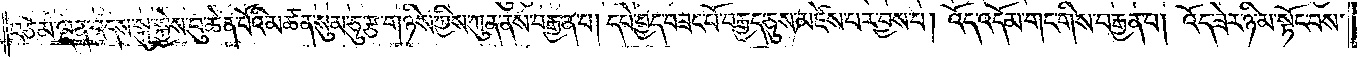བཅོམ་ལྡན་འདས་སྐུ་སྐྱེས་བུ་ཆེན་པོའི་མཚན་སུམ་ཅུ་རྩ་གཉིས་ཀྱིས་ཀུན་ནས་བརྒྱན་པ། དཔེ་བྱད་བཟང་པོ་བརྒྱད་ཅུས་མཛེས་པར་བྱས་པ། འོད་འདོམ་གང་གིས་བརྒྱན་པ། འོད་ཟེར་ཉི་མ་སྟོང་བས་
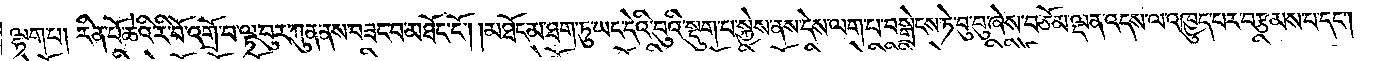ལྷག་པ། རིན་པོ་ཆེའི་རི་བོ་འགྲོ་བ་ལྟ་བུར་ཀུན་ནས་བཟང་བ་མཐོང་ངོ༌། །མཐོང་མ་ཐག་ཏུ་ཡང་དེའི་བུའི་སྡུག་པ་སྐྱེས་ནས་དེས་ལག་པ་བསྒྲེངས་ཏེ་བུ་བུ་ཞེས་བཅོམ་ལྡན་འདས་ལ་འཁྱུད་པར་བརྩམས་པ་དང༌།
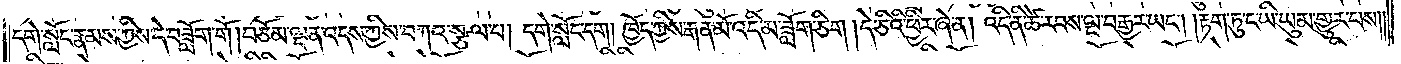དགེ་སློང་རྣམས་ཀྱིས་དེ་བཟློག་གོ །བཅོམ་ལྡན་འདས་ཀྱིས་བཀའ་སྩལ་པ། དགེ་སློང་དག། ཁྱོད་ཀྱིས་རྒན་མོ་འདི་མ་ཟློག་ཅིག །དེ་ཅིའི་ཕྱིར་ཞེ་ན། འདི་ནི་ཚེ་རབས་ལྔ་བརྒྱར་ཡང༌། །རྟག་ཏུ་ང་ཡི་ཡུམ་གྱུར་པས༎
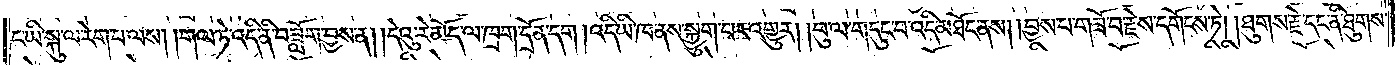ང་ཡི་སྐུ་ལ་རེག་པ་ལས། །གལ་ཏེ་འདི་ནི་བཟློག་བྱས་ན། །དེའུ་རེ་མོད་ལ་ཁྲག་དྲོན་དག །འདི་ཡི་ཁ་ནས་སྐྱུག་པར་འགྱུར། །བུ་ལ་གདུང་བ་འདི་མཐོང་ནས། །བྱས་པ་གཟོ་བ་རྗེས་དགོངས་ཏེ། །ཐུགས་རྗེ་དང་ནི་ཐུགས་
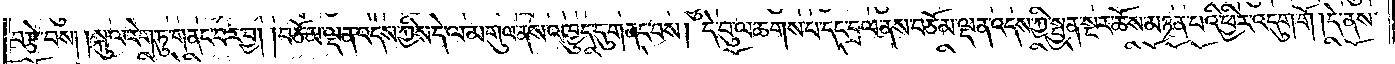བརྩེ་བས། །སྐུ་ལ་རེག་ཏུ་གནང་བར་བྱ། །བཅོམ་ལྡན་འདས་ཀྱིས་དེ་ལ་མགུལ་ནས་འཁྱུད་དུ་གནང་བས། དེ་བུ་ལ་ཆགས་པ་དང་བྲལ་ནས་བཅོམ་ལྡན་འདས་ཀྱི་སྤྱན་སྔར་ཆོས་མཉན་པའི་ཕྱིར་འདུག་གོ །དེ་ནས་
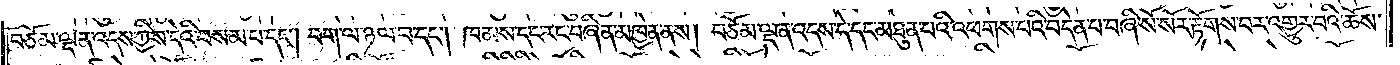བཅོམ་ལྡན་འདས་ཀྱིས་དེའི་བསམ་པ་དང༌། བག་ལ་ཉལ་བ་དང༌། ཁམས་དང་རང་བཞིན་མཁྱེན་ནས། བཅོམ་ལྡན་འདས་དེ་དང་མཐུན་པའི་འཕགས་པའི་བདེན་པ་བཞི་སོ་སོར་རྟོགས་པར་འགྱུར་བའི་ཆོས་
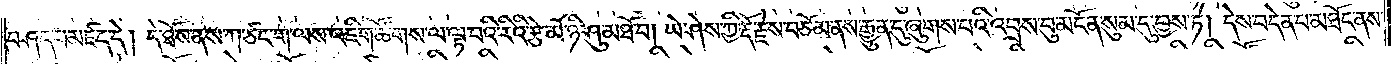བཤད་པ་མཛད་དེ། དེ་ཐོས་ནས་ཀ་ཙང་ག་ལས་འཇིག་ཚོགས་ལ་ལྟ་བའི་རིའི་རྩེ་མོ་ཉི་ཤུ་མཐོ་བ། ཡེ་ཤེས་ཀྱི་རྡོ་རྗེས་བཅོམ་ནས་རྒྱུན་དུ་ཞུགས་པའི་འབྲས་བུ་མངོན་སུམ་དུ་བྱས་ཏེ། དེས་བདེན་པ་མཐོང་ནས་
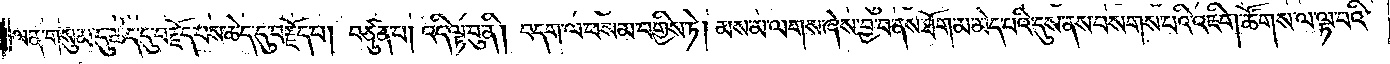ལན་གསུམ་དུ་ཆེད་དུ་བརྗོད་པས་ཆེད་དུ་བརྗོད་པ། བཙུན་པ། འདི་ལྟ་བུ་ནི། བདག་ལ་ཕས་མ་བགྱིས་ཏེ། མས་མ་ལགས་ཞེས་བྱ་བ་ནས་ཐོག་མ་མེད་པའི་དུས་ནས་བསགས་པའི་འཇིག་ཚོགས་ལ་ལྟ་བའི་
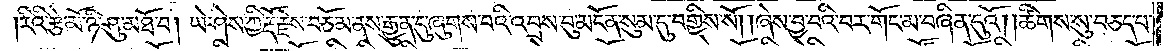།རིའི་རྩེ་མོ་ཉི་ཤུ་མཐོ་བ། ཡེ་ཤེས་ཀྱི་རྡོ་རྗེས་བཅོམ་ནས་རྒྱུན་དུ་ཞུགས་པའི་འབྲས་བུ་མངོན་སུམ་དུ་བགྱིས་སོ། །ཞེས་བྱ་བའི་བར་གོང་མ་བཞིན་དུའོ། །ཚིགས་སུ་བཅད་པ་
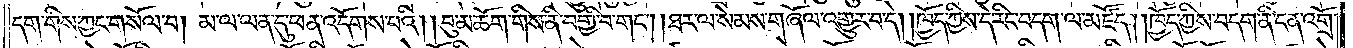དག་གིས་ཀྱང་གསོལ་བ། མ་ལ་ལན་དུ་ཕན་འདོགས་པའི། །བུ་མཆོག་གིས་ནི་བགྱི་བ་གང༌། །ཐར་ལ་སེམས་གཞོལ་འགྱུར་བ་དེ། །ཁྱོད་ཀྱིས་དེ་རིང་བདག་ལ་མཛོད། །ཁྱོད་ཀྱིས་བདག་ནི་ངན་འགྲོ་
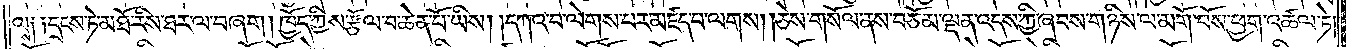ལས༑ ༑དྲངས་ཏེ་མཐོ་རིས་ཐར་ལ་བཞག །ཁྱོད་ཀྱིས་རྩོལ་བ་ཆེན་པོ་ཡིས། །དཀའ་བ་ལེགས་པར་མཛད་པ་ལགས། །ཅེས་གསོལ་ནས་བཅོམ་ལྡན་འདས་ཀྱི་ཞབས་གཉིས་ལ་མགོ་བོས་ཕྱག་འཚལ་ཏེ།
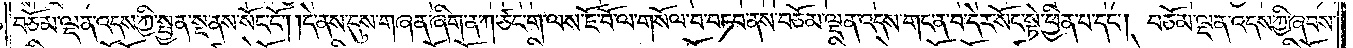བཅོམ་ལྡན་འདས་ཀྱི་སྤྱན་སྔ་ནས་སོང་ངོ༌། །དེ་ནས་དུས་གཞན་ཞིག་ན་ཀ་ཙང་ག་ལས་ཇོ་བོ་ལ་གསོལ་བ་བཏབ་ནས་བཅོམ་ལྡན་འདས་གང་ན་བ་དེར་སོང་སྟེ་ཕྱིན་པ་དང༌། བཅོམ་ལྡན་འདས་ཀྱི་ཞབས་
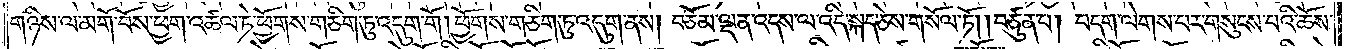གཉིས་ལ་མགོ་བོས་ཕྱག་འཚལ་ཏེ་ཕྱོགས་གཅིག་ཏུ་འདུག་གོ །ཕྱོགས་གཅིག་ཏུ་འདུག་ནས། བཅོམ་ལྡན་འདས་ལ་འདི་སྐད་ཅེས་གསོལ་ཏོ། །བཙུན་པ། བདག་ལེགས་པར་གསུངས་པའི་ཆོས་
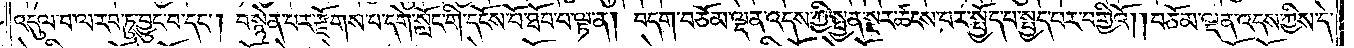འདུལ་བ་ལ་རབ་ཏུ་བྱུང་བ་དང༌། བསྙེན་པར་རྫོགས་པ་དགེ་སློང་གི་དངོས་པོ་ཐོབ་པ་ལྟ་ན། བདག་བཅོམ་ལྡན་འདས་ཀྱི་སྤྱན་སྔར་ཚངས་པར་སྤྱོད་པ་སྤྱད་པར་བགྱིའོ། །བཅོམ་ལྡན་འདས་ཀྱིས་དེ་
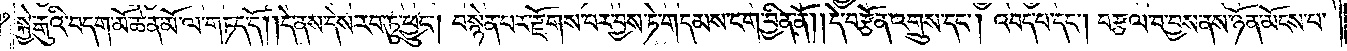སྐྱེ་རྒུའི་བདག་མོ་ཆེན་མོ་ལ་གཏད་དོ། །དེ་ནས་དེས་རབ་ཏུ་ཕྱུང༌། བསྙེན་པར་རྫོགས་པར་བྱས་ཏེ་གདམས་ངག་བྱིན་ནོ། །དེ་བརྩོན་འགྲུས་དང༌། འབད་པ་དང༌། བརྩལ་བ་བྱས་ནས་ཉོན་མོངས་པ་
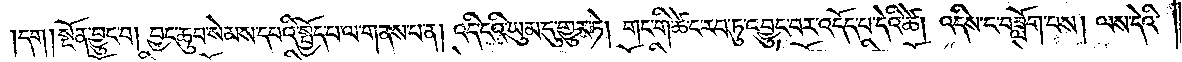།དག། སྔོན་བྱུང་བ། བྱང་ཆུབ་སེམས་དཔའི་སྤྱོད་པ་ལ་གནས་པ་ན། འདི་ངའི་ཡུམ་དུ་གྱུར་ཏེ། གང་གི་ཚེ་ང་རབ་ཏུ་འབྱུང་བར་འདོད་པ་དེའི་ཚེ། འདིས་ང་བཟློག་པས། ལས་དེའི་
